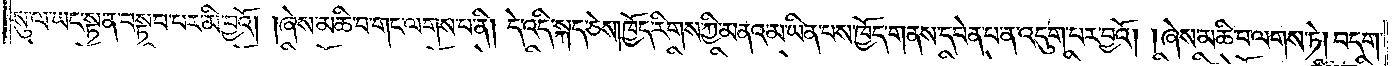སུ་ལ་ཡང་སྟན་བསྟབ་པར་མི་བྱའོ། །ཞེས་མཆི་བ་གང་ལགས་པ་ནི། དེ་འདི་སྐད་ཅེས། ཁྱོད་རིགས་ཀྱི་མནའ་མ་ཡིན་པས་ཁྱོད་གནས་དབེན་པ་ན་འདུག་པར་བྱའོ། །ཞེས་མཆི་བ་ལགས་ཏེ། བདག་
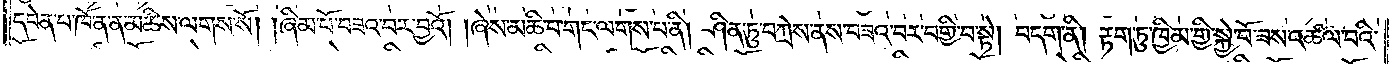དབེན་པ་ཁོ་ན་ན་མཆིས་ལགས་སོ། །ཞིམ་པོ་བཟའ་བར་བྱའོ། །ཞེས་མཆི་བ་གང་ལགས་པ་ནི། ཤིན་ཏུ་བཀྲེས་ནས་བཟའ་བར་བགྱི་བ་སྟེ། བདག་ནི། རྟག་ཏུ་ཁྱིམ་གྱི་སྐྱེ་བོ་ཟས་འཚལ་བའི་
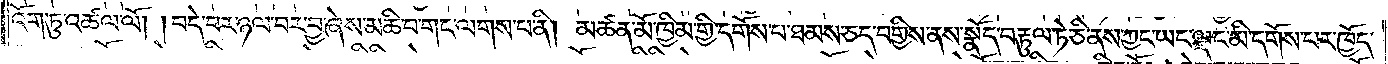འོག་ཏུ་འཚལ་ལོ། །བདེ་བར་ཉལ་བར་བྱ་ཞེས་མཆི་བ་གང་ལགས་པ་ནི། མཚན་མོ་ཁྱིམ་གྱི་དགོས་པ་ཐམས་ཅད་བགྱིས་ནས་སྣོད་བརྟུལ་ཏེ་ཅི་ནས་ཀྱང་ཡང་ལྡང་མི་དགོས་པར་ཁྱོད་
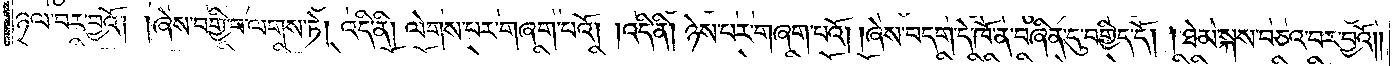ཉལ་བར་བྱའོ། །ཞེས་བགྱི་བ་ལགས་ཏེ། འདི་ནི། ལེགས་པར་གཞག་པའོ། །འདི་ནི། ཉེས་པར་གཞག་པའོ། །ཞེས་བདག་དེ་ཁོ་ན་བཞིན་དུ་བགྱིད་དོ། །ཐེམ་སྐས་བཅའ་བར་བྱའོ༎
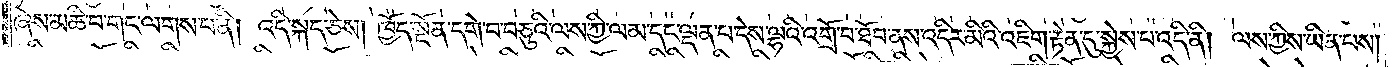ཞེས་མཆི་བ་གང་ལགས་པ་ནི། འདི་སྐད་ཅེས། ཁྱོད་སྔོན་དགེ་བ་བཅུའི་ལས་ཀྱི་ལམ་དང་ལྡན་པ་དེས་ལྷའི་འགྲོ་བ་ཐོབ་ནས་འདིར་མིའི་འཇིག་རྟེན་དུ་སྐྱེས་པ་འདི་ནི། ལས་ཀྱིས་ཡིན་པས།
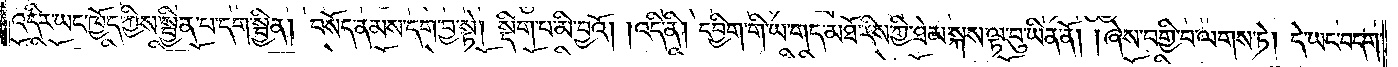འདིར་ཡང་ཁྱོད་ཀྱིས་སྦྱིན་པ་དག་སྦྱིན། བསོད་ནམས་དག་བྱ་སྟེ། སྡིག་པ་མི་བྱའོ། །འདི་ནི། དབྱིག་གི་ཡ་གད་མཐོ་རིས་ཀྱི་ཐེམ་སྐས་ལྟ་བུ་ཡིན་ནོ། །ཞེས་བགྱི་བ་ལགས་ཏེ། དེ་ཡང་བདག་
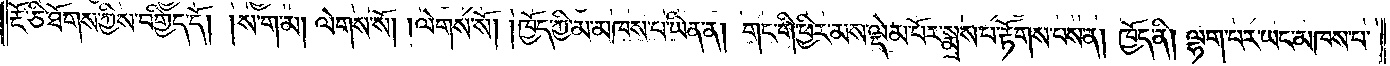རྔོ་ཅི་ཐོགས་ཀྱིས་བགྱིད་དོ། །ས་ག་མ། ལེགས་སོ། ལེགས་སོ། །ཁྱོད་ཀྱི་མ་མཁས་པ་ཡིན་ན། གང་གི་ཕྱིར་མས་ལྡེམ་པོར་སྨྲས་པ་རྟོགས་པས་ན། ཁྱོད་ནི། ལྷག་པར་ཡང་མཁས་པ་
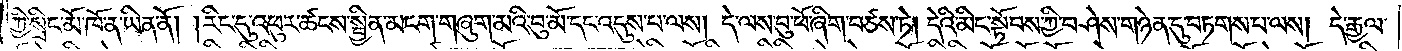ཀྱི་སྲིང་མོ་ཁོ་ན་ཡིན་ནོ། །རིང་དུ་འཕུར་ཚངས་སྦྱིན་མངག་གཞུག་མའི་བུ་མོ་དང་འདུས་པ་ལས། དེ་ལས་བུ་ཕོ་ཞིག་བཙས་ཏེ། དེའི་མིང་སྟོབས་ཀྱི་བཤེས་གཉེན་དུ་བཏགས་པ་ལས། དེ་རྒྱལ་
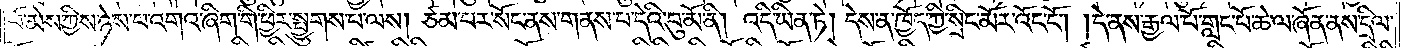པོ་མེས་ཀྱིས་ཉེས་པ་འགའ་ཞིག་གི་ཕྱིར་སྤྱུགས་པ་ལས། ཙམ་པར་སོང་ནས་གནས་པ་དེའི་བུ་མོ་ནི། འདི་ཡིན་ཏེ། དེས་ན་ཁྱོད་ཀྱི་སྲིང་མོར་འོང་ངོ༌། །དེ་ནས་རྒྱལ་པོ་གླང་པོ་ཆེ་ལ་ཞོན་ནས་དྲིལ་
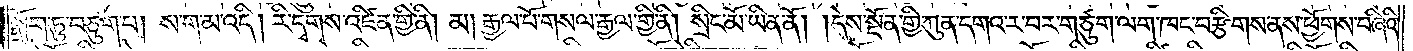སྒྲོག་ཏུ་བཅུག་པ། ས་ག་མ་འདི། རི་དྭགས་འཛིན་གྱི་ནི། མ། རྒྱལ་པོ་གསལ་རྒྱལ་གྱི་ནི། སྲིང་མོ་ཡིན་ནོ། །དེས་སྔོན་གྱི་ཀུན་དགའ་ར་བར་གཙུག་ལག་ཁང་བརྩིགས་ནས་ཕྱོགས་བཞིའི་
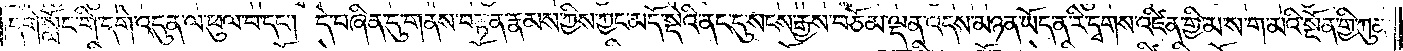དགེ་སློང་གི་དགེ་འདུན་ལ་ཕུལ་བ་དང༌། དེ་བཞིན་དུ་གནས་བརྟན་རྣམས་ཀྱིས་ཀྱང་མདོ་སྡེའི་ནང་དུ་སངས་རྒྱས་བཅོམ་ལྡན་འདས་མཉན་ཡོད་ན་རི་དྭགས་འཛིན་གྱི་མ་ས་ག་མའི་སྔོན་གྱི་ཀུན་
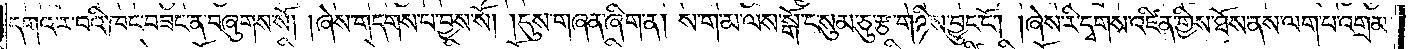དགའ་ར་བའི་ཁང་བཟང་ན་བཞུགས་སོ། །ཞེས་གདགས་པ་བྱས་སོ། །དུས་གཞན་ཞིག་ན། ས་ག་མ་ལས་སྒོ་ང་སུམ་ཅུ་རྩ་གཉིས་བྱུང་ངོ༌། །ཞེས་རི་དྭགས་འཛིན་གྱིས་ཐོས་ནས་ལག་པ་འགྲམ་
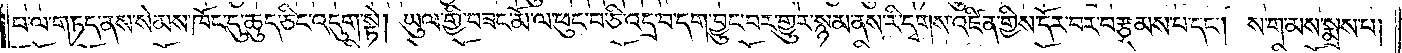པ་ལ་གཏད་ནས་སེམས་ཁོང་དུ་ཆུད་ཅིང་འདུག་སྟེ། ཡུལ་གྱི་བཟང་མོ་ལ་ཕུང་བ་ཅི་འདྲ་བ་དག་བྱུང་བར་གྱུར་སྙམ་ནས་རི་དྭགས་འཛིན་གྱིས་དོར་བར་བརྩམས་པ་དང༌། ས་ག་མས་སྨྲས་པ།
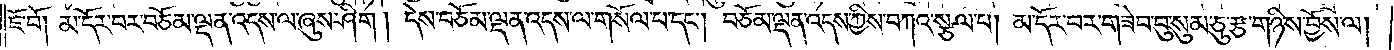ཇོ་བོ། མ་དོར་བར་བཅོམ་ལྡན་འདས་ལ་ཞུས་ཤིག །དེས་བཅོམ་ལྡན་འདས་ལ་གསོལ་བ་དང༌། བཅོམ་ལྡན་འདས་ཀྱིས་བཀའ་སྩལ་བ། མ་དོར་བར་གཟེབ་བུ་སུམ་ཅུ་རྩ་གཉིས་བྱོས་ལ།
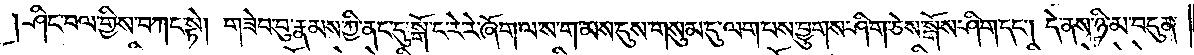ཤིང་བལ་གྱིས་བཀང་སྟེ། གཟེབ་བུ་རྣམས་ཀྱིས་ནང་དུ་སྒོ་ང་རེ་རེ་ཞོག་ལ་ས་ག་མས་དུས་གསུམ་དུ་ལག་པས་བྱུགས་ཤིག་ཅེས་སྒོས་ཤིག་དང༌། དེ་ནས་ཉི་མ་བདུན
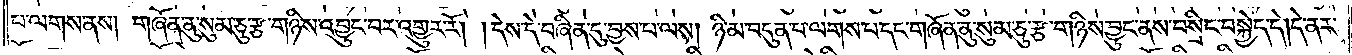པ་ལགས་ནས། གཞོན་ནུ་སུམ་ཅུ་རྩ་གཉིས་འབྱུང་བར་འགྱུར་རོ། །དེས་དེ་བཞིན་དུ་བྱས་པ་ལས། ཉི་མ་བདུན་པ་ལགས་པ་དང་གཞོན་ནུ་སུམ་ཅུ་རྩ་གཉིས་བྱུང་ནས་བསྲིང་བསྐྱེད་དེ། །དེ་ནར་
